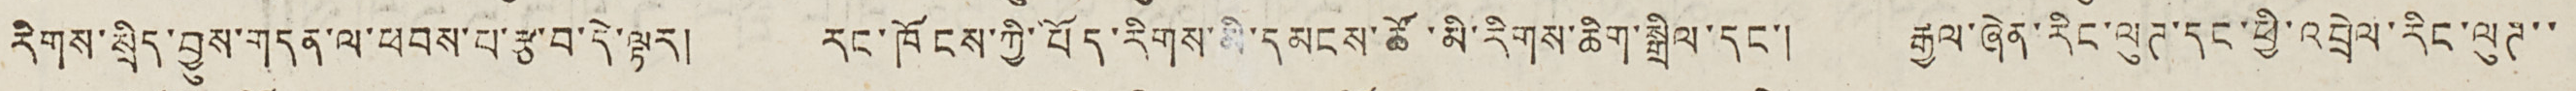རིགས་སྲིད་བྱུས་གདན་ལ་ཕབས་པ་རྩ་བ་དེ་ལྟར། རང་ཁོངས་ཀྱི་བོད་རིགས་མི་དམངས་ཚོ་རིགས་ཆིག་སྒྲིལ་དང་། རྒྱལ་ཞེན་ལུཊ་དང་ཕྱི་འབྲེལ་རིང་ལུཊ་་
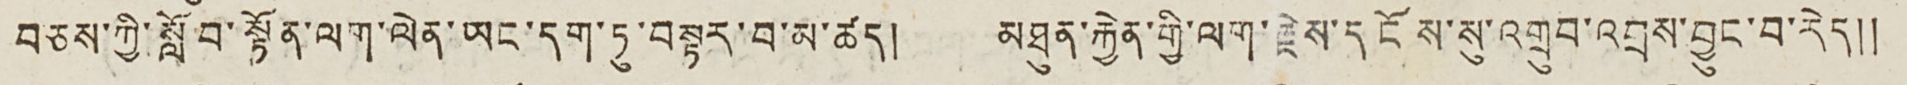བཅས་ཀྱི་སློབ་སྟོན་ལག་ལེན་ཡང་དག་ཏུ་བསྟར་བ་མ་ཚད། མཐུན་རྐྱེན་གྱི་ལག་རྗེས་དངོས་སུ་འགྲུབ་འབྲས་བྱུང་བ་རེད།།
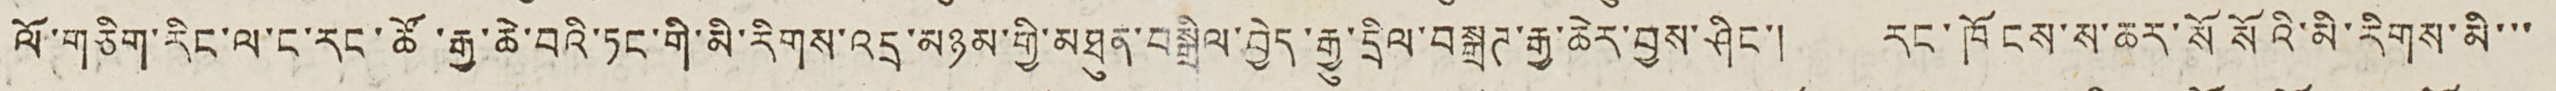ལོ་གཅིག་རིང་ལ་ང་རང་ཚོ་རྒྱ་ཆེ་བའི་ཏང་གི་མི་རིགས་འདྲ་མཉམ་གྱི་མཐུན་བསྒྲིལ་བྱེད་རྒྱུ་དྲིལ་བསྒྲཊ་རྒྱ་ཆེར་བྱས་ཤིང་། རང་ཁོངས་ས་ཆར་སོ སོའི་མི་རིགས་མི་་་
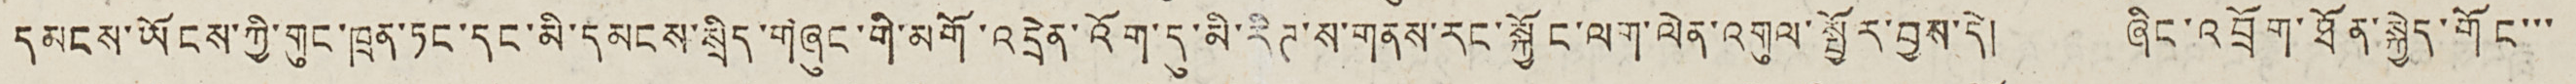དམངས་ཡོངས་ཀྱི་གུང་ཁྲན་ཏང་དང་མི་དམངས་སྲིད་གཞུང་གི་མགོ་འདྲེན་འོག་དུ་མི་རིཊ་ས་གནས་རང་སྐྱོང་ལག་ལེན་འགུལ་སྦྱོར་བྱས་དེ། ཞིང་འབྲོག་ཐོན་སྐྱེད་གོང་་་
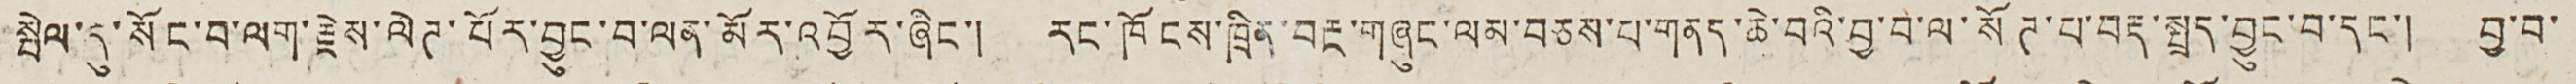སྤེལ་དུ་སོང་བ་ལག་རྗེས་ལེཊ་པོར་བྱུང་བ་ལན་མོར་འབྱོར་ཞིང་། རང་ཁོངས་ཁྲིན་བརྔ་གཞུང་ལམ་བཅས་པ་གནད་ཆེ་བའི་བྱ་བ་ལ་སོཊ་པ་བརྡ་སྤྲད་བྱུང་བ་དང་། བྱ་བ་
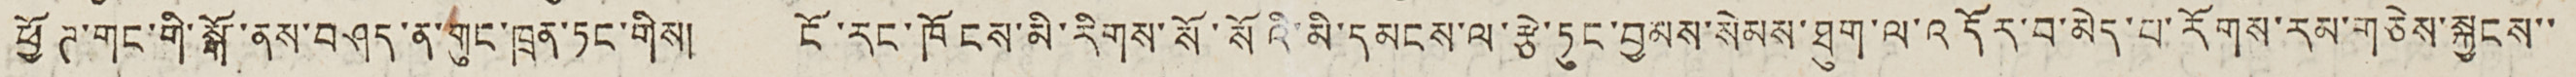ཕྱོཊ་གང་གི་སྒོ་ནས་བཤད་ན་གུང་ཁྲན་ཏང་གིས། ངོ་རང་ཁོངས་མི་རིགས་སོ་སོའི་མི་དམངས་ལ་རྩེ་ཏུང་བྱམས་སེམས་ཐུག་ལ་འདོར་བ་མེད་པ་རོགས་རམ་གཅེས་སྐྱངས་་
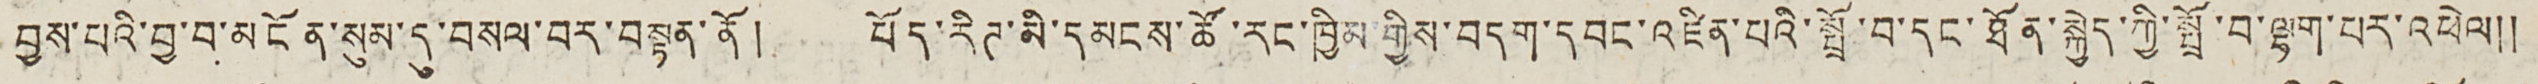བྱས་པའི་བྱ་བ་མངོན་སུམ་དུ་བསལ་བར་བསྟན་ནོ། བོད་རིཊ་མི་དམངས་ཚོ་རང་ཁྱིམ གྱིས་བདག་དབང་འཛིན་པའི་སྤྲོ་བ་དང་ཐོན་སྐྱེད་ཀྱི་སྤྲོ་བ་ལྷག་པར་འཕེལ༎
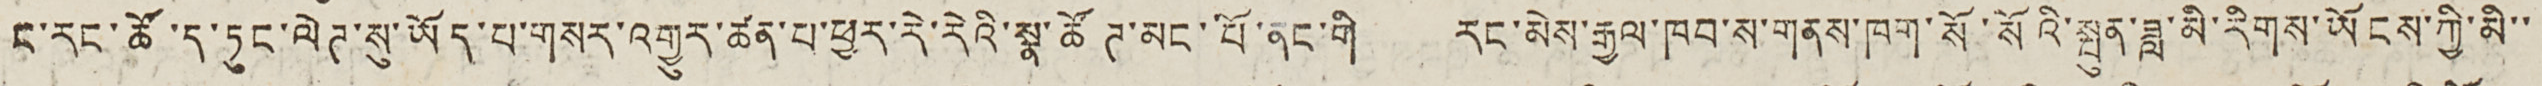ང་རང་ཚོ་ད་ཏུང་ལེཊ་སུ་ཡོད་པ་གསར་འགྱུར་ཚན་པ་ཕྱུར་རེ་རེའི་སྣ་ཚོཊ་མང་པོ་ནང་གི རང་མེས་རྒྱལ་ཁབ་ས་གནས་ཁག་སོ་སོའི་སྤུན་ཟླ་མི་རིགས་ཡོངས་ཀྱི་མི་་
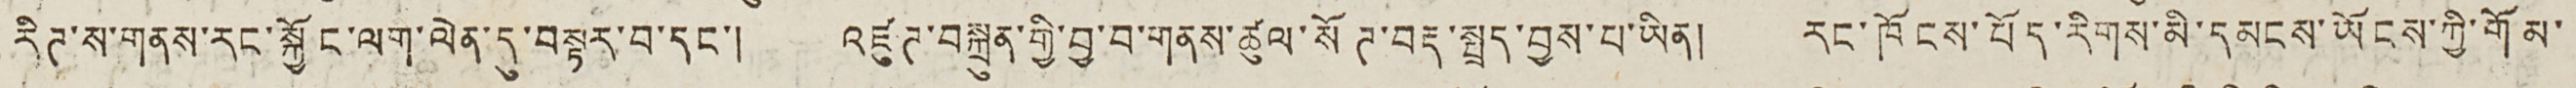རིཊ་ས་གནས་རང་སྐྱོང་ལག་ལེན་དུ་བསྟར་བ་དང་། འཛུཊ་བསྐྲུན་གྱི་བྱ་བ་གནས་ཚུལ་སོཊ་བརྡ་སྤྲད་བྱས་པ་ཡིན། རང་ཁོངས་བོད་རིགས་མི་དམངས་ཡོངས་ཀྱི་གོམ་
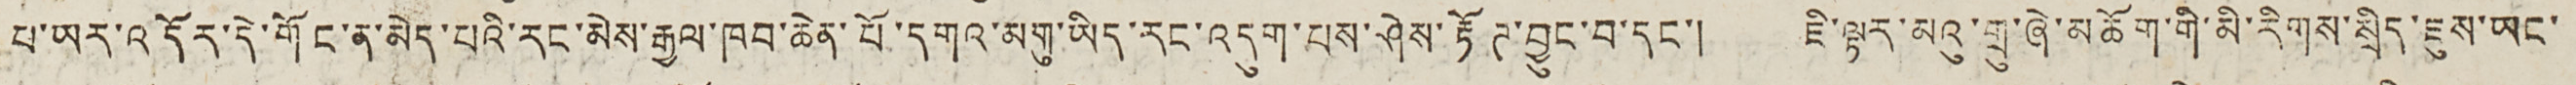པ་ཡར་འདོར་དེ་གོང་ན་མེད་པའི་རང་མེས་རྒྱལ་ཁབ་ཆེན་པོ་དགའ་མགུ་ཡིད་རང་འདུག་པས་ཤེས་རྟོཊ་བྱུང་བ་དང་། ཇི་ལྟར་མའུ་གྲུ་ཞེ་མཆོག་གི་མི་རིགས་སྲིད་ཇུས་ཡང་
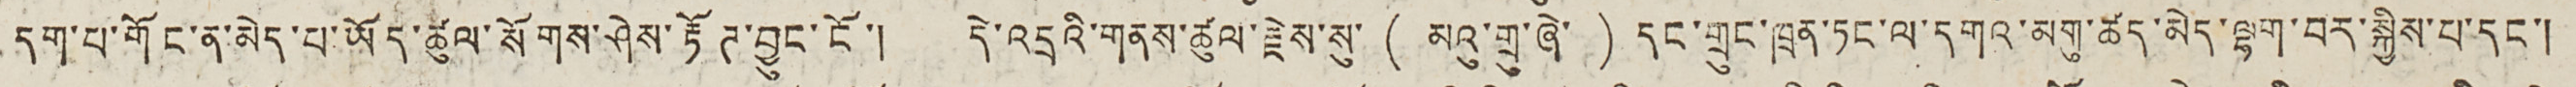དག་པ་གོང་ན་མེད་པ་ཡོད་ཚུལ་སོགས་ཤེས་རྟོཊ་བྱུང་ངོ་། དེ་འདྲའི་གནས་ཚུལ་རྗེས་སུ་ ( མའུ་གྲུ་ཞེ་) དང་གྲུང་ཁྲན་ཏང་ལ་དགའ་མགུ་ཚད་མེད་ལྷག་བར་སྐྱིས་པ་དང་།
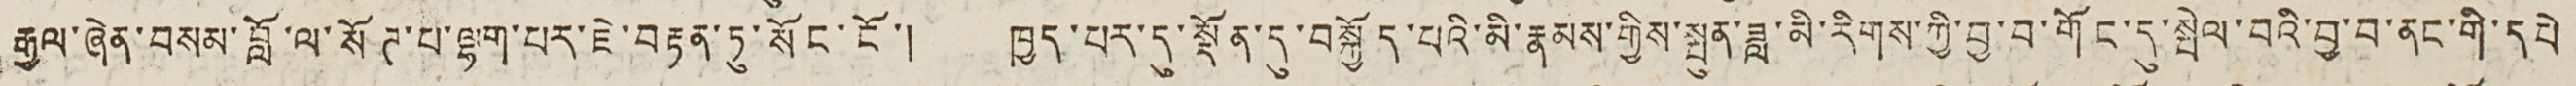རྒྱལ་ཞེན་བསམ་བློ་ལ་སོཊ་པ་ལྷག་པར་ཇེ་བརྟན་ཏུ་སོང་ངོ་། ཁྱད་པར་དུ་སྡོན་དུ་བསྐྱོད་པའི་མི་རྣམས་གྱིས་སྤུན་ཟླ་མི་རིགས་ཀྱི་བྱ་བ་གོང་དུ་སྤེལ་བའི་བྱ་བ་ནང་གི་དཔེ
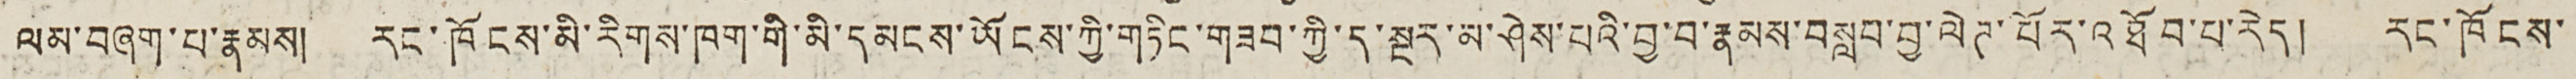ལམ་བཞག་པ་རྣམས། རང་ཁོངས་མི་རིགས་ཁག་གི་མི་དམངས་ཡོངས་ཀྱི་གཏིང་གཟབ་ཀྱི་དུ་སྔར་མ་ཤེས་པའི་བྱ་བ་རྣམས་བསླབ་བྱ་ལེཊ་པོར་འཐོབ་པ་རེད། རང་ཁོངས་
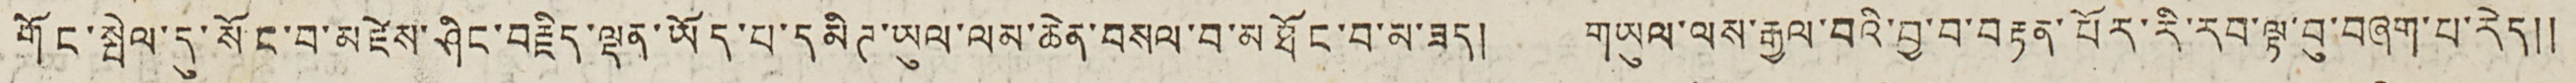གོང་སྤེལ་དུ་སོང་བ་མཛེས་ཤིང་བརྗིད་ལྡན་ཡོད་པ་དམིཊ་ཡུལ་ལམ་ཆེན་བསལ་བ་མཐོང་བ་མ་ཟད། གཡུལ་ལས་རྒྱལ་བའི་བྱ་བ་བརྟན་པོར་རི་རབ་ལྟ་བུ་བཞག་པ་རེད།།
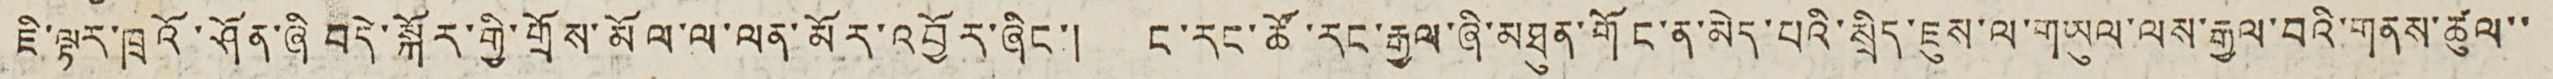ཇི་ལྟར་ཁྲའོ་ཤོན་ཞི བདེ་སྐོར་གྱི་གྲོས་མོལ་ལ་ལན་མོར་འབྱོར་ཞིང་། ང་རང་ཚོ་རང་རྒྱལ་ཞི་མཐུན་གོང་ན་མེད་པའི་སྲིད་ཇུས་ལ་གཡུལ་ལས་རྒྱལ་བའི་གནས་ཚུལ་་
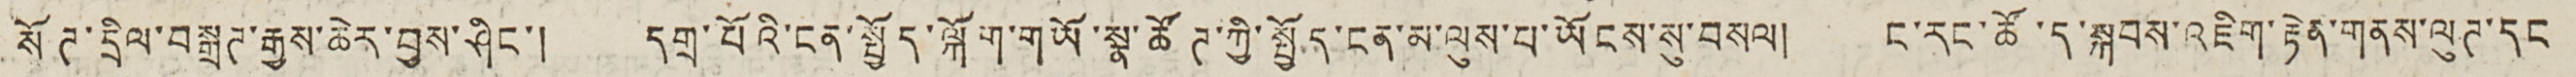སོཊ་དྲིལ་བསྒྲཊ་རྒྱས་ཆེར་བྱས་ཤིང་། དགྲ་པོའི་ངན་སྤྱོད་ལྐོག་གཡོ་སྣ་ཚོཊ་ཀྱི་སྤྱོད་ངན་མ་ལུས་པ་ཡོངས་སུ་བསལ། ང་རང་ཚོ་ད་སྐབས་འཇིག་རྟེན་གནས་ལུཊ་དང
